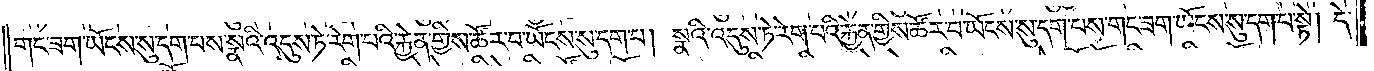གང་ཟག་ཡོངས་སུ་དག་པས་སྣའི་འདུས་ཏེ་རེག་པའི་རྐྱེན་གྱིས་ཚོར་བ་ཡོངས་སུ་དག་པ། སྣའི་འདུས་ཏེ་རེག་པའི་རྐྱེན་གྱིས་ཚོར་བ་ཡོངས་སུ་དག་པས་གང་ཟག་ཡོངས་སུ་དག་པ་སྟེ། དེ་
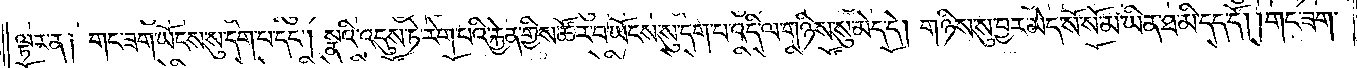ལྟར་ན༑ གང་ཟག་ཡོངས་སུ་དག་པ་དང༌། སྣའི་འདུས་ཏེ་རེག་པའི་རྐྱེན་གྱིས་ཚོར་བ་ཡོངས་སུ་དག་པ་འདི་ལ་གཉིས་མེད་དེ། གཉིས་སུ་བྱར་མེད་སོ་སོ་མ་ཡིན་ཐ་མི་དད་དོ། །གང་ཟག་
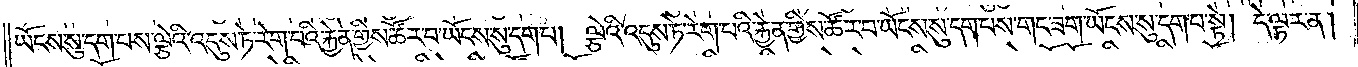ཡོངས་སུ་དག་པས་ལྕེའི་འདུས་ཏེ་རེག་པའི་རྐྱེན་གྱིས་ཚོར་བ་ཡོངས་སུ་དག་པ། ལྕེའི་འདུས་ཏེ་རེག་པའི་རྐྱེན་གྱིས་ཚོར་བ་ཡོངས་སུ་དག་པས་གང་ཟག་ཡོངས་སུ་དག་པ་སྟེ། དེ་ལྟར་ན།
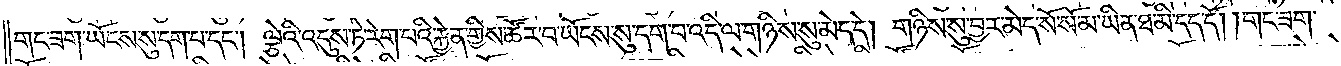གང་ཟག་ཡོངས་སུ་དག་པ་དང༌། ལྕེའི་འདུས་ཏེ་རེག་པའི་རྐྱེན་གྱིས་ཚོར་བ་ཡོངས་སུ་དག་པ་འདི་ལ་གཉིས་སུ་མེད་དེ། གཉིས་སུ་བྱར་མེད་སོ་སོ་མ་ཡིན་ཐ་མི་དད་དོ། །གང་ཟག་
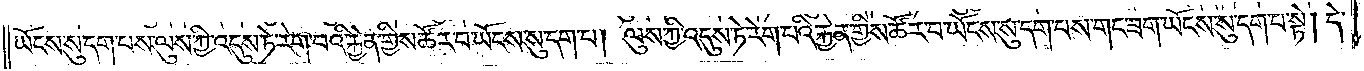ཡོངས་སུ་དག་པས་ལུས་ཀྱི་འདུས་ཏེ་རེག་པའི་རྐྱེན་གྱིས་ཚོར་བ་ཡོངས་སུ་དག་པ། ལུས་ཀྱི་འདུས་ཏེ་རེག་པའི་རྐྱེན་གྱིས་ཚོར་བ་ཡོངས་སུ་དག་པས་གང་ཟག་ཡོངས་སུ་དག་པ་སྟེ། དེ་
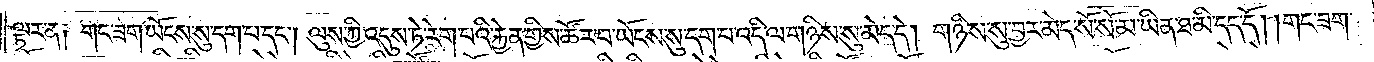ལྟར་ན༑ གང་ཟག་ཡོངས་སུ་དག་པ་དང༌། ལུས་ཀྱི་འདུས་ཏེ་རེག་པའི་རྐྱེན་གྱིས་ཚོར་བ་ཡོངས་སུ་དག་པ་འདི་ལ་གཉིས་སུ་མེད་དེ། གཉིས་སུ་བྱར་མེད་སོ་སོ་མ་ཡིན་ཐ་མི་དད་དོ། །གང་ཟག་
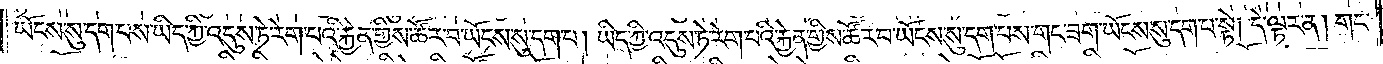ཡོངས་སུ་དག་པས་ཡིད་ཀྱི་འདུས་ཏེ་རེག་པའི་རྐྱེན་གྱིས་ཚོར་བ་ཡོངས་སུ་དག་པ། ཡིད་ཀྱི་འདུས་ཏེ་རེག་པའི་རྐྱེན་གྱིས་ཚོར་བ་ཡོངས་སུ་དག་པས་གང་ཟག་ཡོངས་སུ་དག་པ་སྟེ། དེ་ལྟར་ན། གང་
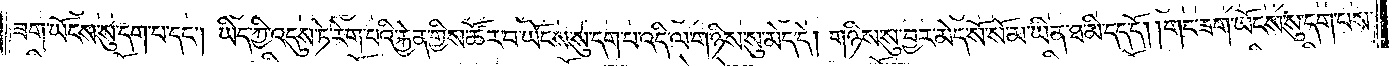ཟག་ཡོངས་སུ་དག་པ་དང༌། ཡིད་ཀྱི་འདུས་ཏེ་རེག་པའི་རྐྱེན་གྱིས་ཚོར་བ་ཡོངས་སུ་དག་པ་འདི་ལ་གཉིས་སུ་མེད་དེ། གཉིས་སུ་བྱར་མེད་སོ་སོ་མ་ཡིན་ཐ་མི་དད་དོ། །གང་ཟག་ཡོངས་སུ་དག་པས་
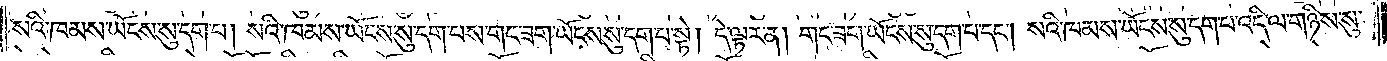སའི་ཁམས་ཡོངས་སུ་དག་པ། སའི་ཁམས་ཡོངས་སུ་དག་པས་གང་ཟག་ཡོངས་སུ་དག་པ་སྟེ། དེ་ལྟར་ན། གང་ཟག་ཡོངས་སུ་དག་པ་དང༌། སའི་ཁམས་ཡོངས་སུ་དག་པ་འདི་ལ་གཉིས་སུ་
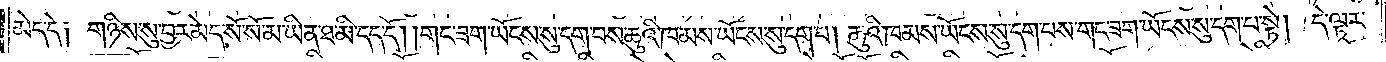མེད་དེ༑ གཉིས་སུ་བྱར་མེད་སོ་སོ་མ་ཡིན་ཐ་མི་དད་དོ། །གང་ཟག་ཡོངས་སུ་དག་པས་ཆུའི་ཁམས་ཡོངས་སུ་དག་པ། ཆུའི་ཁམས་ཡོངས་སུ་དག་པས་གང་ཟག་ཡོངས་སུ་དག་པ་སྟེ། དེ་ལྟར་
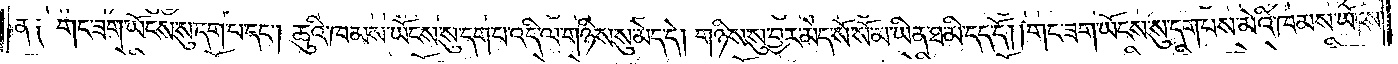ན༑ གང་ཟག་ཡོངས་སུ་དག་པ་དང༌། ཆུའི་ཁམས་ཡོངས་སུ་དག་པ་འདི་ལ་གཉིས་སུ་མེད་དེ། གཉིས་སུ་བྱར་མེད་སོ་སོ་མ་ཡིན་ཐ་མི་དད་དོ། །གང་ཟག་ཡོངས་སུ་དག་པས་མེའི་ཁམས་ཡོངས་
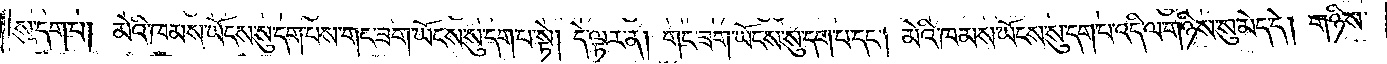སུ་དག་པ། མེའི་ཁམས་ཡོངས་སུ་དག་པས་གང་ཟག་ཡོངས་སུ་དག་པ་སྟེ། དེ་ལྟར་ན། གང་ཟག་ཡོངས་སུ་དག་པ་དང༌། མེའི་ཁམས་ཡོངས་སུ་དག་པ་འདི་ལ་གཉིས་སུ་མེད་དེ། གཉིས་
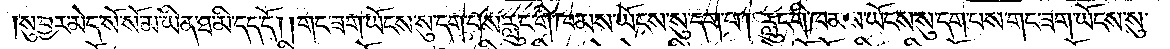སུ་བྱར་མེད་སོ་སོ་མ་ཡིན་ཐ་མི་དད་དོ། །གང་ཟག་ཡོངས་སུ་དག་པས་རླུང་གི་ཁམས་ཡོངས་སུ་དག་པ། རླུང་གི་ཁམས་ཡོངས་སུ་དག་པས་གང་ཟག་ཡོངས་སུ་
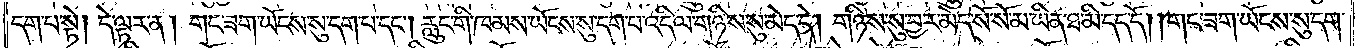དག་པ་སྟེ། དེ་ལྟར་ན། གང་ཟག་ཡོངས་སུ་དག་པ་དང༌། རླུང་གི་ཁམས་ཡོངས་སུ་དག་པ་འདི་ལ་གཉིས་སུ་མེད་དེ། གཉིས་སུ་བྱར་མེད་སོ་སོ་མ་ཡིན་ཐ་མི་དད་དོ། །གང་ཟག་ཡོངས་སུ་དག་
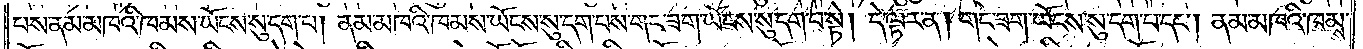པས་ནམ་མཁའི་ཁམས་ཡོངས་སུ་དག་པ། ནམ་མཁའི་ཁམས་ཡོངས་སུ་དག་པས་གང་ཟག་ཡོངས་སུ་དག་པ་སྟེ། དེ་ལྟར་ན། གང་ཟག་ཡོངས་སུ་དག་པ་དང༌། ནམ་མཁའི་ཁམས་
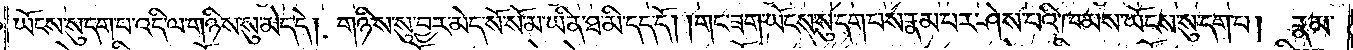ཡོངས་སུ་དག་པ་འདི་ལ་གཉིས་སུ་མེད་དེ། གཉིས་སུ་བྱར་མེད་སོ་སོ་མ་ཡིན་ཐ་མི་དད་དོ། །གང་ཟག་ཡོངས་སུ་དག་པས་རྣམ་པར་ཤེས་པའི་ཁམས་ཡོངས་སུ་དག་པ། རྣམ་
